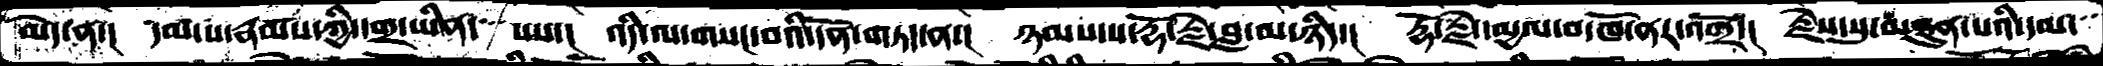མེད་ན་།  དམ་པ་་རྣམས་ཀྱི་དགྲ་ཡིན་ པས་།  འདི་ལ་གསང་བའི་དོན་གཏད་ན་།  ཉམས་པ་རྡོ་རྗེ་བླ་མ་ཉིད་།  རྡོ་རྗེ་དམྱལ་བ་ཁོ་ནར་འགྲོ་།  རྗེས་སུ་མཐུན་པའི་དམ་
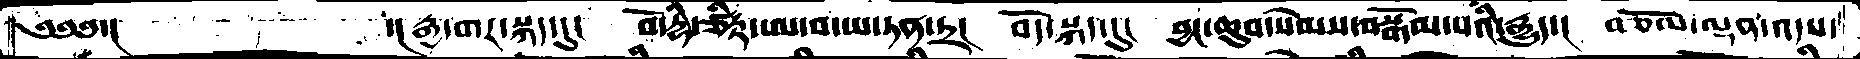༄༅༅་།        ་།རྒྱ་གར་སྐད་དུ།  བོ་དྷི་ཙིཏྟ་ཨ་བ་ཡ་ཏན་ཏྲ།  བོད་སྐད་དུ།  བྱང་ཆུབ་སེམས་བསྒོམ་པའི་རྒྱུད་།  བཅོམ་ལྡན་འདས་
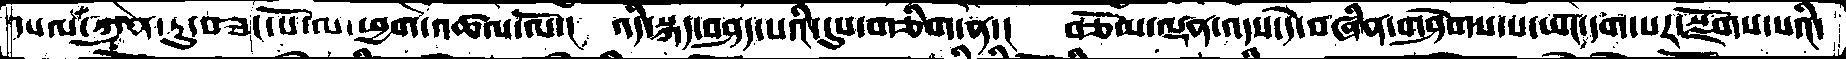དཔལ་ཀུན་ཏུ་བཟང་པོ་ལ་ཕྱག་འཚལ་ལོ་།  འདི་སྐད་བཤད་པའི་དུས་གཅིག་ན་།  བཅོམ་ལྡན་འདས་དེ་བཞིན་གཤེགས་པ་ཡང་དག་པར་སྫོགས་པའི་
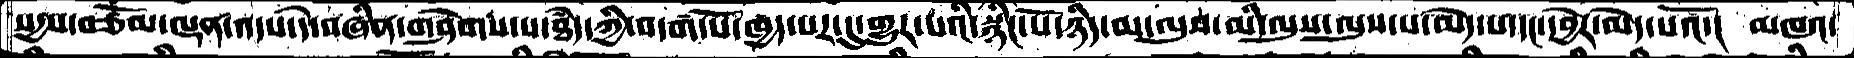སདྱས་བཅོམ་ལྡན་འདས་དེ་བཞིན་གཤེགས་པ་ཐཾད་ཀྱི་བདག་པོ་ཁྱད་པར་དུ་གྱུར་པའི་སྙིང་པོ་ཉིད་མ་ལུས་མི་ལུས་ལུས་པ་མེད་པ་དང་དབྱེར་མེད་པའོ་།  མཁའ་
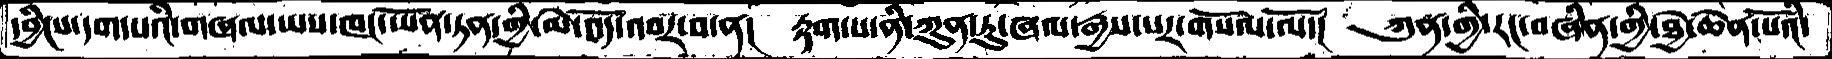དབྱིངས་དག་པའི་གཞལ་ཡས་ཁང་ཡོན་ཏན་གྱི་མེ་འོད་འབར་བ་ན།  རྟག་པ་ནི་ཀུན་ཏུ་ཞལ་རྒྱས་པར་གསོལ་ལོ་།  ཀུན་གྱི་རང་བཞིན་གྱི་ཐྱེ་ཆེན་པོའི་
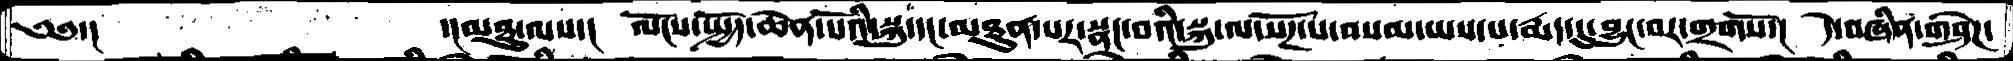༄༅་།        ་།མཐུ་ལས་།  ལོངས་སྤྱོད་ཆེན་པོའི་སྐུ་དང་མཐུན་པར་སྣང་བའི་སྐུ་ལ་སོཌ་པ་བསམ་ཡས་པ་རྨད་དུ་བྱུང་བར་གྲགསོ་།  དེ་བཞིན་གཤེཌ་
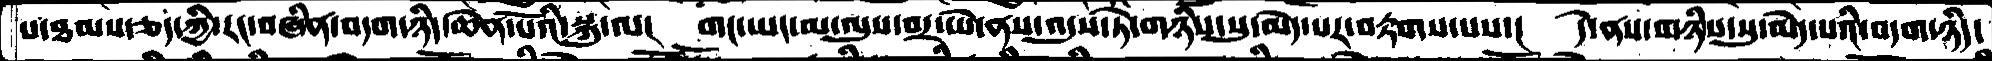པ་ཐམས་ཅད་ཀྱི་རང་བཞིན་བདག་ཉིད་ཆེན་པོའི་སྐུ་ལ།  གང་ཡང་མ་ལུས་བར་ཡེ་ནས་འདུས་ཏེ་གཉིས་སུ་མེད་པར་བརྟགས་པས་།  དེ་ནས་གཉིས་སུ་མེད་པའི་བདག་ཉིད་
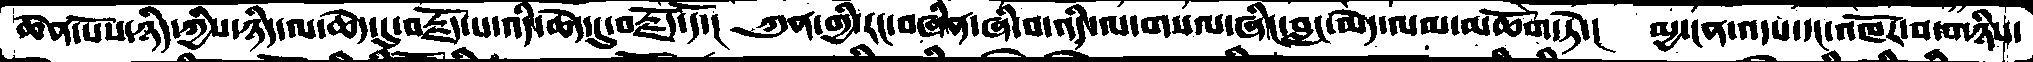ཆེན་པོས་ཉིད་ཀྱིས་ཉིད་ལ་ཆེད་དུ་བརྗོད་པ་འདི་ཆེད་དུ་བརྗོད་དོ་།  ཀུན་གྱི་རང་བཞིན་ཞི་བ་འདི་ལ་གསལ་ཞིང་བླང་མེད་ལམ་མཆོག་ཏེ་།  མྱ་ངན་འདས་དང་འཁོར་བ་གཉིས་
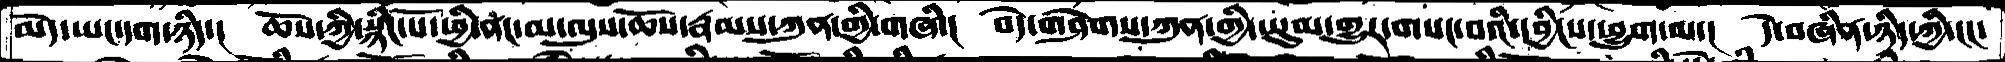མེད་ཡང་དག་ཉིད་།  ཆོས་ཀྱི་སྙིང་པོ་ཕྱི་ནང་མ་ལུས་ཆོས་རྣམས་ཀུན་གྱི་གཞི་།  བདེ་གཤེགས་ཀུན་གྱི་ཡུམ་གྱུར་གསང་བའི་དབྱིངས་ཕྱུག་མ་།  དེ་བཞིན་ཉིད་ཀྱི་ངང་
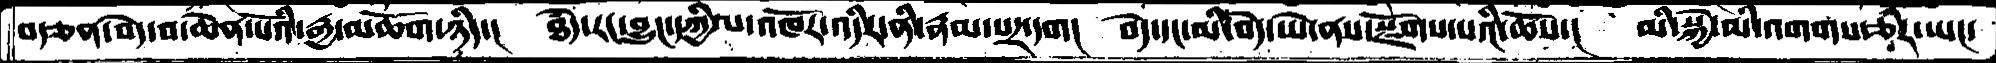བ་ཅན་བདེ་བ་ཆེན་པོའི་རྒྱ་མཆོག་ཉིད་།  ཐཾད་རང་བྱུང་དཀྱིལ་འཁོར་འདིར་ནི་རྣམ་པར་དག།  བདེ་དང་མི་བདེ་ཡེ་ནས་སྫོགས་པའི་ཆོས་།  མི་སྐྱེ་མི་འགགས་ཅིར་ཡང་
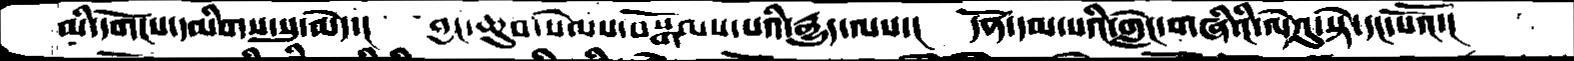མི་དགོངས་དམིགས་སུ་མེད་།  བྱང་ཆུབ་སེམས་བསྒོམས་པའི་རྒྱུད་ལས་།  དོན་དམ་པའི་གླེང་གཞིའི་ལེའུ་སྟེ་དང་པོའོ་།
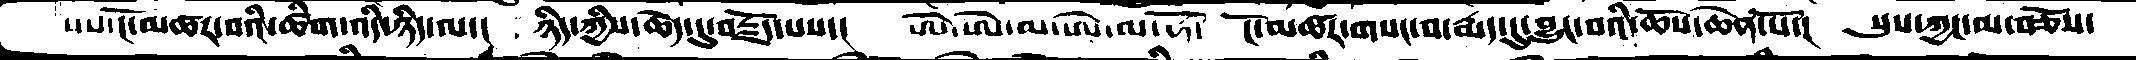པས་ངོ་མཚར་བའི་ཚིག་འདི་ཉིད་ལ་།  ཉིད་ཀྱིས་ཆེད་དུ་བརྗོད་པས་།  ཨེ་ཨེ་མ་ཨེ་མ་ཧོ་ ངོ་མཚར་གསང་བ་རྨད་དུ་བྱུང་བའི་ཆོས་ཆེན་པོ་།  སུས་ཀྱང་མ་བཅོས་
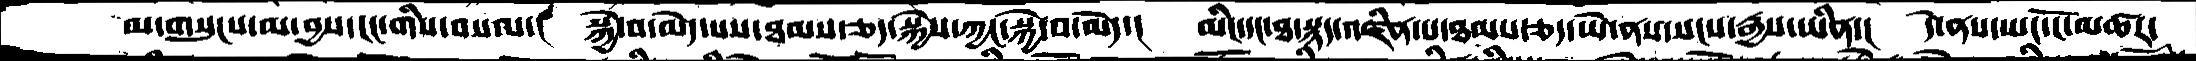མ་གསུངས་མ་བྱས་ངང་གིས་བསལ་།  སྐྱེ་བ་མེད་པས་ཐམས་ཅད་སྐྱེས་ཀྱང་སྐྱེ་བ་མེད་།  མིང་དང་ཐ་སྙད་འཛིན་པ་ཐམས་ཅད་ཡེ་ནས་སངས་རྒྱས་ཡིན་།  དེ་ནས་ཡང་ངོ་མཚར་
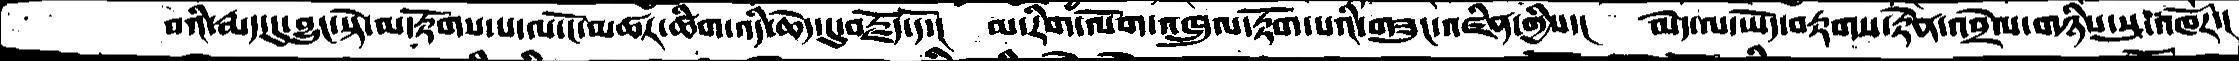བའི་རྨད་དུ་བྱུང་སྟེ་མ་རྟོགས་པ་ལ་ངོ་མཚར་ཚིག་འདི་ཆེད་དུ་བརྗོད་དོ་།  མ་རིག་ལོག་འཁྲུལ་རྟོག་པའི་གཟུང་འཛིན་གྱིས་།  མེད་ལ་ཡོད་བརྟགས་རྟེན་འབྲེལ་གཉིས་སུ་འཁོར་།
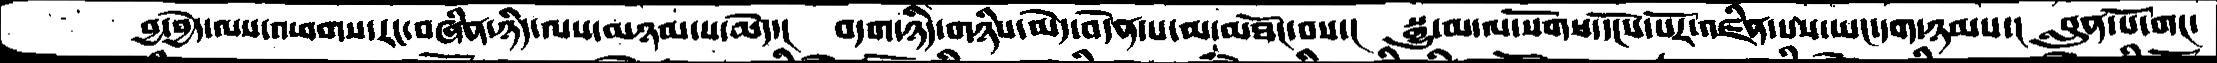བྱ་བྱེད་ལས་འཕགས་རང་བཞིན་ཉིད་ལས་མཉམ་པ་མེད་།  བདག་ཉིད་གཉིས་མེད་བདེན་པ་མ་མཐོང་བས་།  སྒྱུ་མ་ལ་སོགས་དངོས་པོར་འཛིན་པས་ཡང་དག་ཉམས་།  བླུན་པོ་གང་
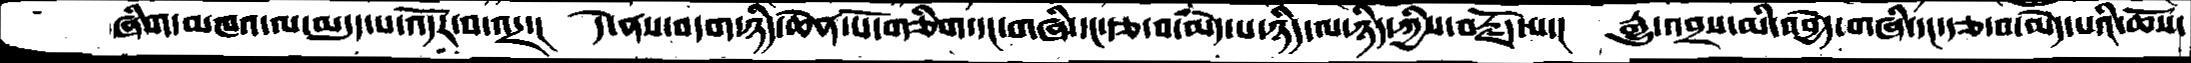ཞིག་མཁའ་ལ་མདུད་པ་འདོར་བ་འདྲ་།  དེ་ནས་བདག་ཉིད་ཆེན་པོ་གཅིག་དང་གཞི་དང་རྩ་བ་མེད་པ་ཉིད་ལ་ཉིད་ཀྱིས་བརྗོད་པ་།  རྒྱུ་འབྲས་མི་འབྱེད་གཞི་དང་རྩ་བ་མེད་པའི་ཆོས་
